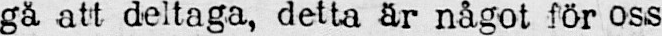gå att deltaga, detta är något för oss
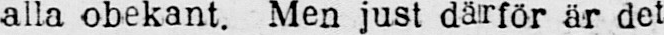alla obekant. Men just därför är det
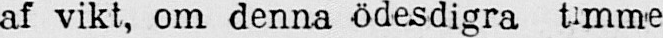af vikt, om denna ödesdigra timme
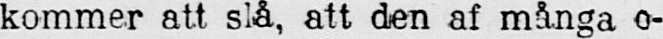kommer att slå, att den af många o-
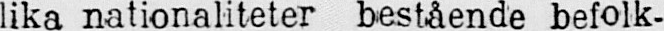lika nationaliteter bestående befolk-
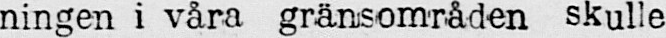ningen i våra gränsområden skulle
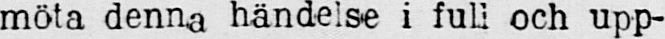möta denna händelse i full och upp-
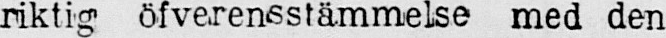riktig öfverensstämmelse med den
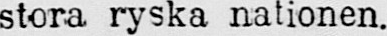stora ryska nationen.
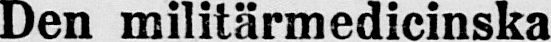Den militärmedicinska
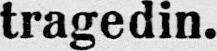tragedin.
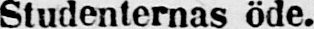Studenternas öde.
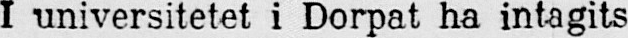I universitetet i Dorpat ha intagits
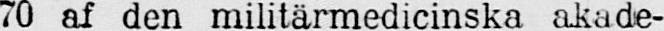70 af den militärmedicinska akade-
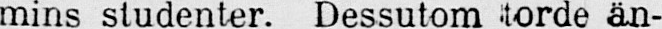mins studenter. Dessutom torde än-
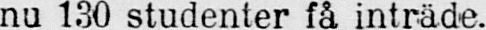nu 130 studenter få inträde.
